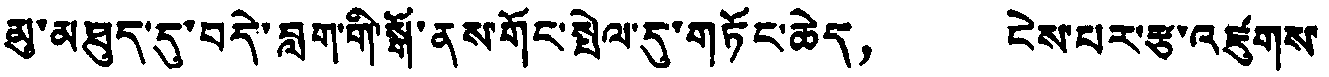མུ་མཐུད་དུ་བདེ་བླག་གི་སྒོ་ནས་གོང་སྤེལ་དུ་གཏོང་ཆེད， ངེས་པར་རྩ་འཛུགས་
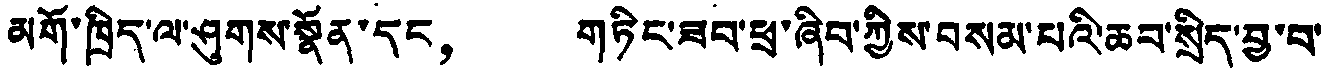མགོ་ཁྲིད་ལ་ཤུགས་སྣོན་དང， གཏིང་ཟབ་ཕྲ་ཞིབ་ཀྱིས་བསམ་པའི་ཆབ་སྲིད་བྱ་བ་
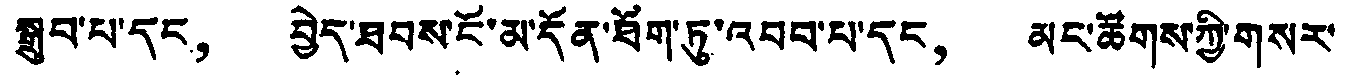སྒྲུབ་པ་དང， བྱེད་ཐབས་ངོ་མ་དོན་ཐོག་ཏུ་འབབ་པ་དང， མང་ཚོགས་ཀྱི་གསར་
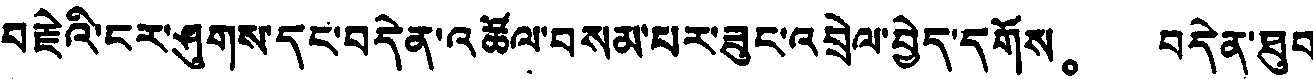བརྗེའི་ངར་ཤུགས་དང་བདེན་འཚོལ་བསམ་པར་ཟུང་འབྲེལ་བྱེད་དགོས。 བདེན་ཐུབ་
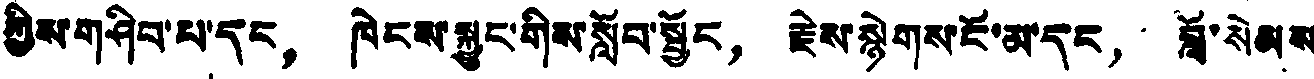ཀྱིས་གཤིབ་པ་དང， ཁེངས་སྐྱུང་གིས་སློབ་སྦྱོང， རྗེས་སྙེགས་ངོ་མ་དང， བློ་སེམས
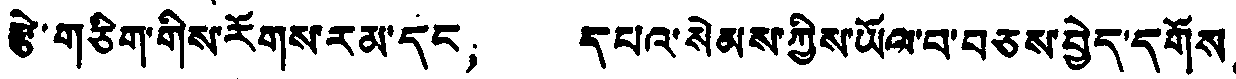རྩེ་གཅིག་གིས་རོགས་རམ་དང， དཔའ་སེམས་ཀྱིས་ཡོལ་བ་བཅས་བྱེད་དགོས。
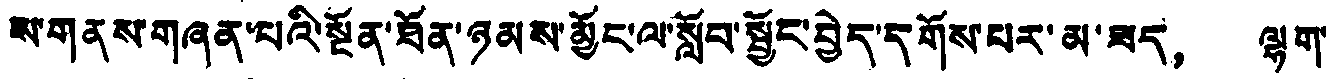ས་གནས་གཞན་པའི་སྔོན་ཐོན་ཉམས་མྱོང་ལ་སློབ་སྦྱོང་བྱེད་དགོས་པར་མ་ཟད， ལྷག་
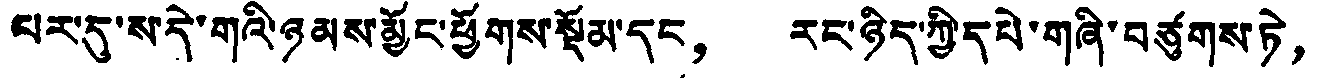པར་དུ་ས་དེ་གའི་ཉམས་མྱོང་ཕྱོགས་སྡོམ་དང， རང་ཉིད་ཀྱི་དཔེ་གཞི་བཙུགས་ཏེ，
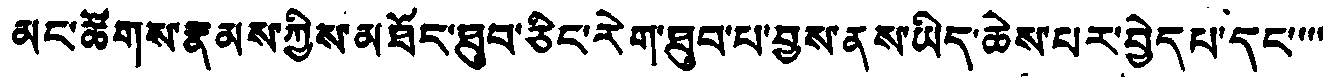མང་ཚོགས་རྣམས་ཀྱིས་མཐོད་ཐུབ་ཅིང་རེག་ཐུབ་པ་བྱས་ནས་ཡིད་ཆེས་པར་བྱེད པ་དང་་་་
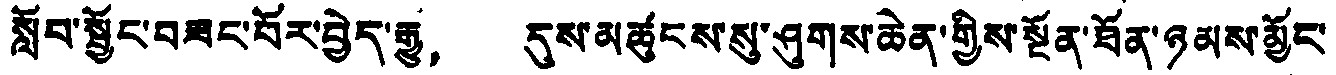སློབ་སྦྱོང་བཟང་པོར་བྱེད་རྒྱུ， དུས་མཚུངས་སུ་ཤུགས་ཆེན་གྱིས་སྔོན་ཐོན་ཉམས་མྱོང་
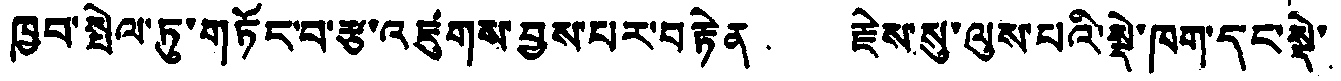ཁྱབ་སྤེལ་ཏུ་གཏོང་བ་རྩ་འཛུགས་བྱས་པར་བརྟེན རྗེས་སུ་ལུས་པའི་སྡེ་ཁག་དང་སྡེ་
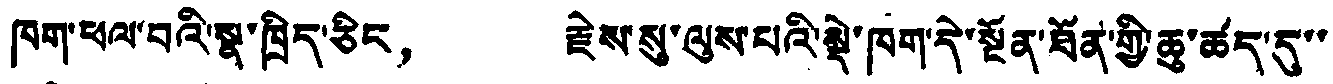ཁག་ཕལ་བའི་སྣ་ཁྲིད་ཅིང， རྗེས་སུ་ལུས་པའི་སྡེ་ཁག་དེ་སྔོན་ཐོན་གྱི་ཆུ་ཚད་དུ་་
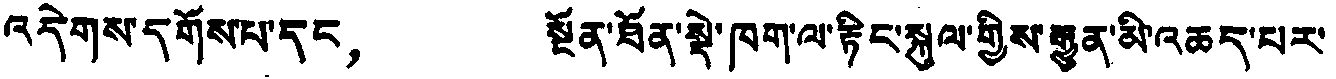འདེགས་དགོས་པ་དང， སྔོན་ཐོན་སྡེ་ཁག་ལ་རྟིང་སྐུལ་གྱིས་རྒྱུན་མི་འཆད་པར་
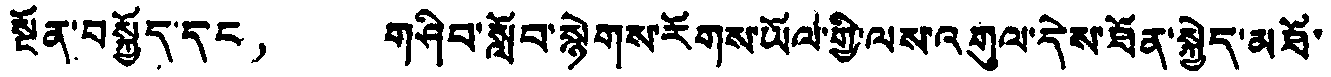སྔོན་བསྐྱོད་དང，  གཤིབ་སློབ་སྙེགས་རོགས་ཡོལ་གྱི་ལས་འགུལ་དེས་ཐོན་སྐྱེད་མཐོ་
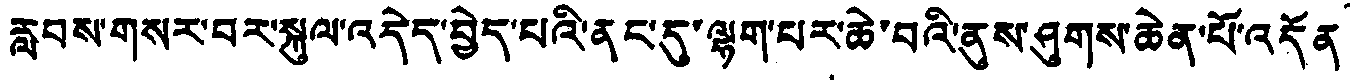རླབས་གསར་བར་སྐུལ་འདེད་བྱེད་པའི་ནང་དུ་ལྷག་པར་ཆེ་བའི་ནུས་ཤུགས་ཆེན་པོ་འདོན
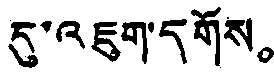དུ་འཇུག་དགོས。
